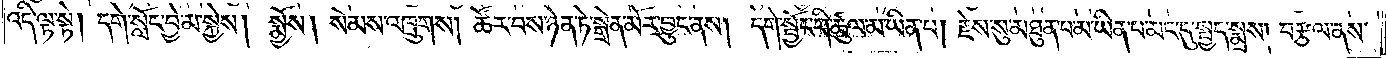འདི་ལྟ་སྟེ། དགེ་སློང་བྱེ་མ་སྐྱེས། སྨྱོས། སེམས་འཁྲུགས། ཚོར་བས་ཉེན་ཏེ་སྒྲེན་མོར་བྱུང་ནས། དགེ་སྦྱོང་གི་ཚུལ་མ་ཡིན་པ། རྗེས་སུ་མཐུན་པ་མ་ཡིན་པ་མང་དུ་སྤྱད་སྨྲས། བརྩལ་ནས་
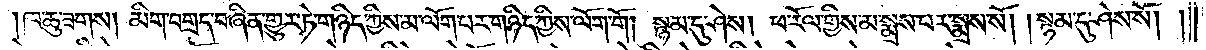།ཁ་ཆུ་ཟགས། །མིག་བགྲད་བཞིན་གྱུར་ཏེ་གཉིད་ཀྱིས་མ་ལོག་པར་གཉིད་ཀྱིས་ལོག་གོ །སྙམ་དུ་ཤེས། ཕ་རོལ་གྱིས་མ་སྨྲས་པར་སྨྲས་སོ། །སྙམ་དུ་ཤེས་སོ། །
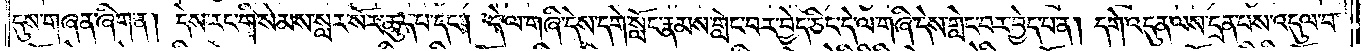དུས་གཞན་ཞིག་ན། དེས་རང་གི་སེམས་སླར་སོར་ཆུད་པ་དང༌། དེ་ལ་གཞི་དེས་དགེ་སློང་རྣམས་གླེང་བར་བྱེད་ཅིང་དེ་ལ་གཞི་དེས་གླེང་བར་བྱེད་པ་ན། དགེ་འདུན་ལས་དྲན་པས་འདུལ་བ་
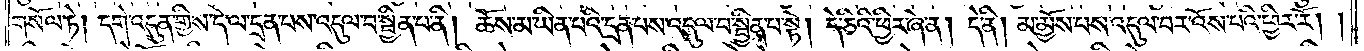གསོལ་ཏེ། དགེ་འདུན་གྱིས་དེ་ལ་དྲན་པས་འདུལ་བ་སྦྱིན་པ་ནི། ཆོས་མ་ཡིན་པའི་དྲན་པས་འདུལ་བ་སྦྱིན་པ་སྟེ། དེ་ཅིའི་ཕྱིར་ཞེ་ན། དེ་ནི། མ་མྱོས་པས་འདུལ་བར་འོས་པའི་ཕྱིར་རོ། །
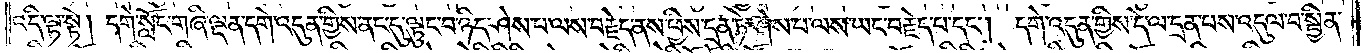འདི་ལྟ་སྟེ། དགེ་སློང་གཞི་ལྡན་དགེ་འདུན་གྱིས་ནང་དུ་ལྟུང་བ་ཉིད་ཤེས་པ་ལས་བརྗེད་ནས་ཕྱིས་དྲན་ཏེ་ཤེས་པ་ལས་ཡང་བརྗེད་པ་དང༌། དགེ་འདུན་གྱིས་དེ་ལ་དྲན་པས་འདུལ་བ་སྦྱིན་
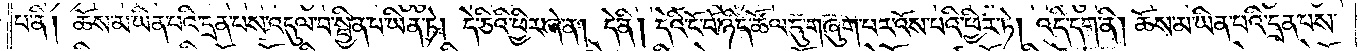པ་ནི། ཆོས་མ་ཡིན་པའི་དྲན་པས་འདུལ་བ་སྦྱིན་པ་ཡིན་ཏེ། དེ་ཅིའི་ཕྱིར་ཞེ་ན། དེ་ནི། དེའི་ངོ་བོ་ཉིད་ཚོལ་དུ་གཞུག་པར་འོས་པའི་ཕྱིར་ཏེ། འདི་དག་ནི། ཆོས་མ་ཡིན་པའི་དྲན་པས་
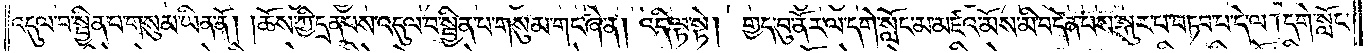འདུལ་བ་སྦྱིན་པ་གསུམ་ཡིན་ནོ། །ཆོས་ཀྱི་དྲན་པས་འདུལ་བ་སྦྱིན་པ་གསུམ་གང་ཞེ་ན། འདི་ལྟ་སྟེ། གྱད་བུ་ནོར་ལ་དགེ་སློང་མ་མཛའ་མོས་མི་བདེན་པས་སྐུར་བ་བཏབ་པ་དེ་ལ། དགེ་སློང་
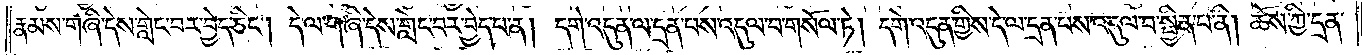རྣམས་གཞི་དེས་གླེང་བར་བྱེད་ཅིང༌། དེ་ལ་གཞི་དེས་གླེང་བར་བྱེད་པ་ན། དགེ་འདུན་ལ་དྲན་པས་འདུལ་བ་གསོལ་ཏེ། དགེ་འདུན་གྱིས་དེ་ལ་དྲན་པས་འདུལ་བ་སྦྱིན་པ་ནི། ཆོས་ཀྱི་དྲན་
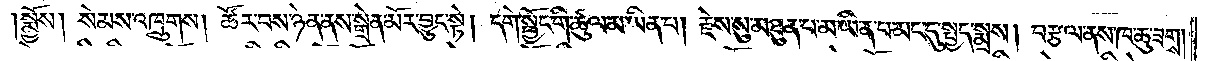།སྨྱོས། སེམས་འཁྲུགས། ཚོར་བས་ཉེན་ནས་སྒྲེན་མོར་བྱུང་སྟེ། དགེ་སྦྱོང་གི་ཚུལ་མ་ཡིན་པ། རྗེས་སུ་མཐུན་པ་མ་ཡིན་པ་མང་དུ་སྤྱད་སྨྲས། བརྩལ་ནས་ཁ་ཆུ་ཟགས་
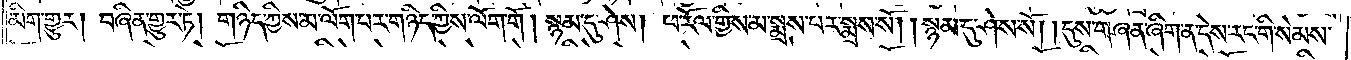མིག་གྱུར། བཞིན་གྱུར་ཏེ། གཉིད་ཀྱིས་མ་ལོག་པར་གཉིད་ཀྱིས་ལོག་གོ །སྙམ་དུ་ཤེས། ཕ་རོལ་གྱིས་མ་སྨྲས་པར་སྨྲས་སོ། །སྙམ་དུ་ཤེས་སོ། །དུས་གཞན་ཞིག་ན་དེས་རང་གི་སེམས་
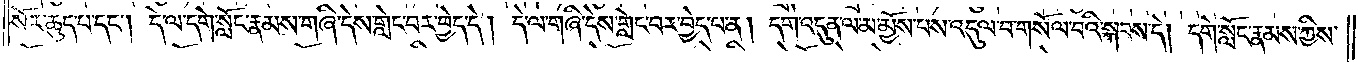སོར་ཆུད་པ་དང༌། དེ་ལ་དགེ་སློང་རྣམས་གཞི་དེས་གླེང་བར་བྱེད་དེ། དེ་ལ་གཞི་དེས་གླེང་བར་བྱེད་པ་ན། དགེ་འདུན་ལ་མ་མྱོས་པས་འདུལ་བ་གསོལ་བའི་སྐབས་དེ། དགེ་སློང་རྣམས་ཀྱིས་
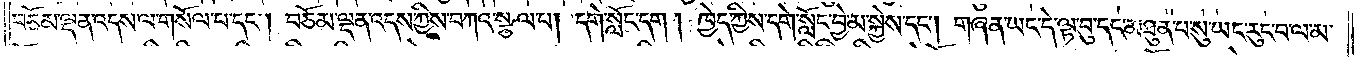བཅོམ་ལྡན་འདས་ལ་གསོལ་པ་དང༌། བཅོམ་ལྡན་འདས་ཀྱིས་བཀའ་སྩལ་པ། དགེ་སློང་དག །ཁྱེད་ཀྱིས་དགེ་སློང་བྱེ་མ་སྐྱེས་དང༌། གཞན་ཡང་དེ་ལྟ་བུ་དང་མཐུན་པ་སུ་ཡང་རུང་བ་ལ་མ་
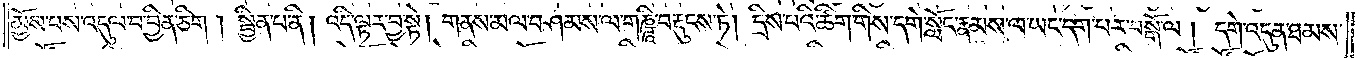མྱོས་པས་འདུལ་བ་བྱིན་ཅིག །སྦྱིན་པ་ནི། འདི་ལྟར་བྱ་སྟེ། གནས་མལ་བཤམས་ལ་གཎྜཱི་བརྡུངས་ཏེ། དྲིས་པའི་ཚིག་གིས་དགེ་སློང་རྣམས་ལ་ཡང་དག་པར་བསྒོ་ལ། དགེ་འདུན་ཐམས་
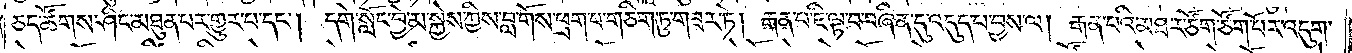ཅད་ཚོགས་ཤིང་མཐུན་པར་གྱུར་པ་དང༌། དགེ་སློང་བྱེ་མ་སྐྱེས་ཀྱིས་བླ་གྲོས་ཕྲག་པ་གཅིག་ཏུ་གཟར་ཏེ། རྒན་པ་ཇི་ལྟ་བ་བཞིན་དུ་འདུད་པ་བྱས་ལ། རྒན་པའི་མཐར་ཙོག་ཙོག་པོར་འདུག་
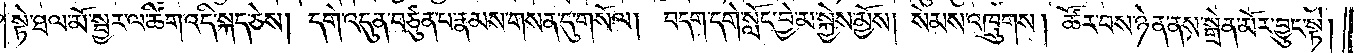སྟེ་ཐལ་མོ་སྦྱར་ལ་ཚིག་འདི་སྐད་ཅེས། དགེ་འདུན་བཙུན་པ་རྣམས་གསན་དུ་གསོལ། བདག་དགེ་སློང་བྱེ་མ་སྐྱེས་མྱོས། སེམས་འཁྲུགས། ཚོར་བས་ཉེན་ནས་སྒྲེན་མོར་བྱུང་སྟེ།
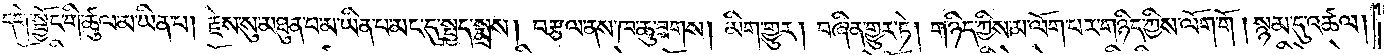དགེ་སྦྱོང་གི་ཚུལ་མ་ཡིན་པ། རྗེས་སུ་མཐུན་པ་མ་ཡིན་པ་མང་དུ་སྤྱད་སྨྲས། བརྩལ་ནས་ཁ་ཆུ་ཟགས། མིག་གྱུར། བཞིན་གྱུར་ཏེ། གཉིད་ཀྱིས་མ་ལོག་པར་གཉིད་ཀྱིས་ལོག་གོ །སྙམ་དུ་འཚལ།
